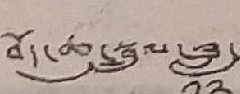བོད་ཆུ་སྦྲུལ་ཟླ་༡༢་ཚེས་༢༢་ལ་། པར་ངོས་གསུམ་པ་
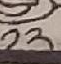༡༢
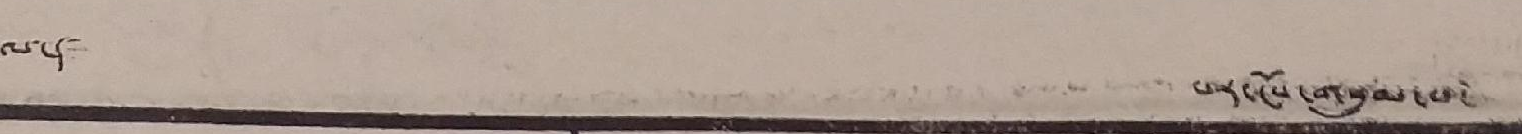ལ་། པར་ངོས་གསུམ་པ་
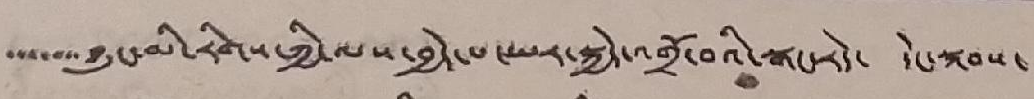་་་་་་ཉུང་མི་རིགས་ཀྱི་ལས་བྱེད་པ་ཡར་སྐྱེད་འགྲོ་བའི་སྒང་རེད་ དེང་སྐབས་
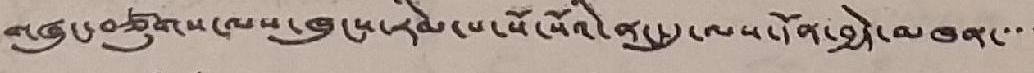གཞུང་བཙུགས་ལས་ཁུངས་རིམ་པ་སོ་སོའི་ནང་དུ་ལས་དོན་བྱེད་མཁན་་་་
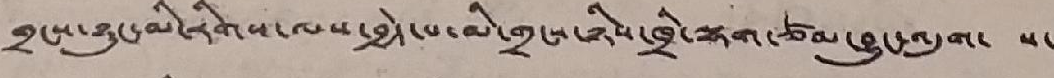གྲངས་ཉུང་མི་རིགས་ལས་བྱེད་མི་གྲངས་ཉིས་ཁྲི་ལྷག་ཙམ་བྱུང་འདུག་ ས་
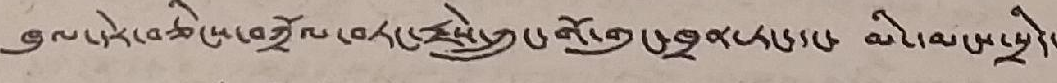ཁུལ་དེར་བཅིངས་བཀྲོལ་བཏང་རྗེས་ཀྲུང་གོ་གུང་ཁྲན་ཏང་དང་ མི་དམངས་སྲིད་
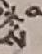ས
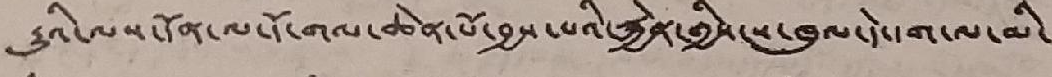རྒྱུའི་ལས་དོན་ལ་དོ་གལ་ཆེན་པོ་བྱས་པའི་རྐྱེན་གྱིས་ས་ཁུལ་དག་ལ་མི་
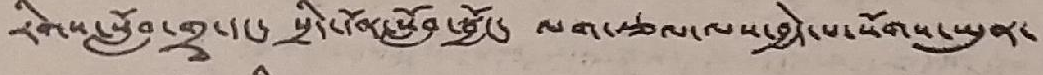རིགས་སློབ་གྲྭ་དང་ སྲིད་དོན་སློབ་སྦྱོང་ ལག་རྩལ་ལས་བྱེད་པ་སོགས་ཡུན་
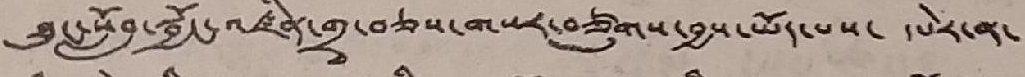ཐུང་སློབ་སྦྱོང་འཛིན་གྲྭ་བཅས་གསར་བཙུགས་བྱས་ཡོད་པས་ དཔེར་ན་
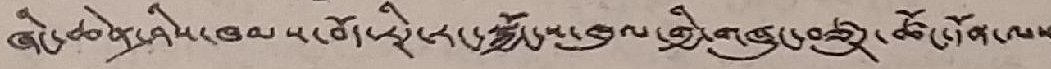ཞིང་ཆེན་ཤིས་ཁམས་བོད་རིཊ་རང་སྐྱོང་ས་ཁུལ་གྱི་གཞུང་བཙུཊ་ཚོང་དོན་ལས་
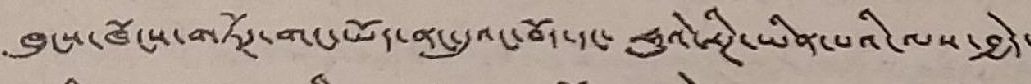ཁུངས་ཁོངས་གཏོཊ་གང་ཡོད་ནང་དུའང་བོད་དང་ ཧུའེ་རིཊ་ཡིན་པའི་ལས་བྱེད་
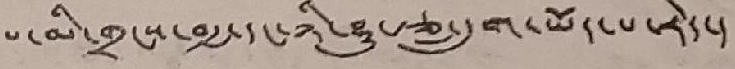པ་མི་གྲངས་བརྒྱ་དང་ཉི་ཤུ་རྩ་དྲུག་ཡོད་པ་རེད་།
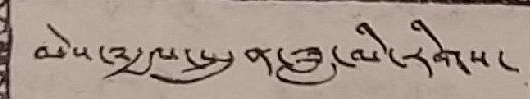མེས་༸རྒྱལ་སྤུན་ཟླ་མི་རིགས་
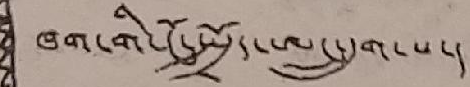ཁག་གི་ངོ་སྤྲོད་ཨང་དྲུག་པ་།
